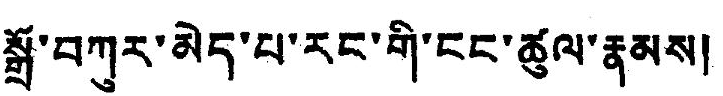སྒྲོ་བཀུར་མེད་པ་རང་གི་ངང་ཚུལ་རྣམས།
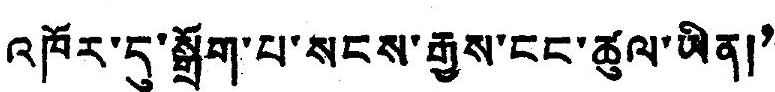འཁོར་དུ་སྒྲོག་པ་སངས་རྒྱས་ངང་ཚུལ་ཡིན།”
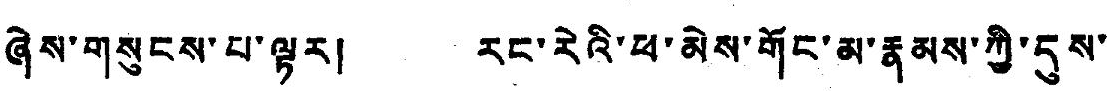ཞེས་གསུངས་པ་ལྟར། རང་རེའི་ཕ་མེས་གོང་མ་རྣམས་ཀྱི་དུས་
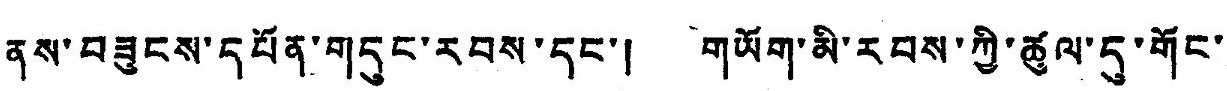ནས་བཟུངས་དཔོན་གདུང་རབས་དང་། གཡོག་མི་རབས་ཀྱི་ཚུལ་དུ་གོང་
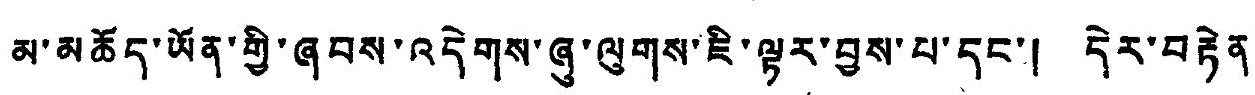མ་མཆོད་ཡོན་གྱི་ཞབས་འདེགས་ཞུ་ལུགས་ཇི་ལྟར་བྱས་པ་དང་། དེར་བརྟེན་
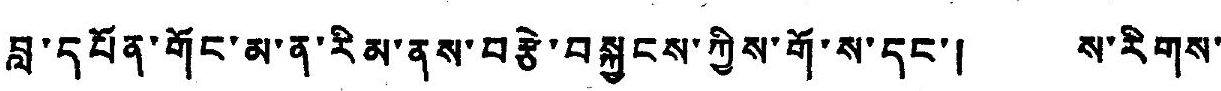བླ་དཔོན་གོང་མ་ན་རིམ་ནས་བརྩེ་བསྐྱངས་ཀྱིས་གོ་ས་དང་། ས་རིགས་
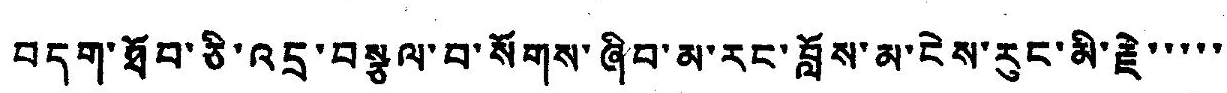བདག་ཐོབ་ཅི་འདྲ་བསྩལ་བ་སོགས་ཞིབ་མ་རང་བློས་མ་ངེས་རུང་མི་རྗེ་་་་་
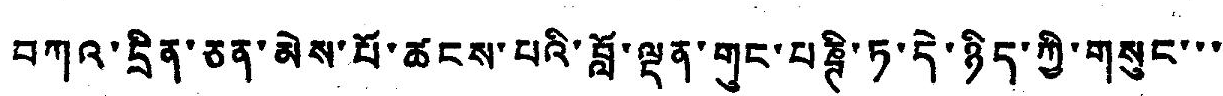བཀའ་དྲིན་ཅན་མེས་པོ་ཚངས་པའི་བློ་ལྡན་གུང་པཎྚི་ཏ་དེ་ཉིད་ཀྱི་གསུང་་་
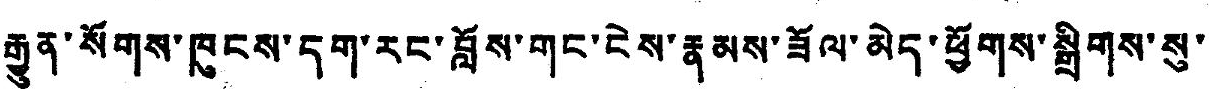རྒྱུན་སོགས་ཁུངས་དག་རང་བློས་གང་ངེས་རྣམས་ཟོལ་མེད་ཕྱོགས་སྒྲིགས་སུ་་
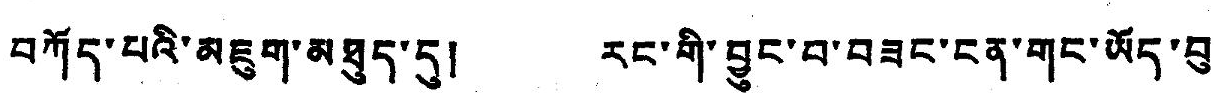བཀོད་པའི་མཇུག་མཐུད་དུ་། རང་གི་བྱུང་བ་བཟང་ངན་གང་ཡོད་བུ་
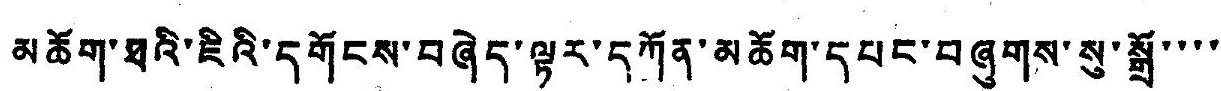མཆོག་ཐའི་ཇིའི་དགོངས་བཞེད་ལྟར་དཀོན་མཆོག་དཔང་བཞུགས་སུ་སྒྲོ་་་་
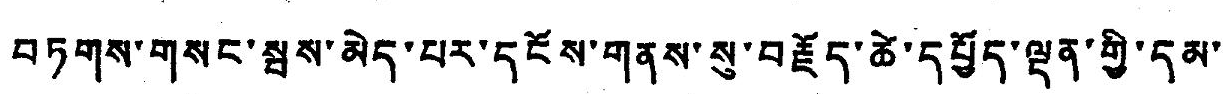བཏགས་གསང་སྦས་མེད་པར་དངོས་གནས་སུ་བརྗོད་ཚེ་དཔྱོད་ལྡན་གྱི་དམ་
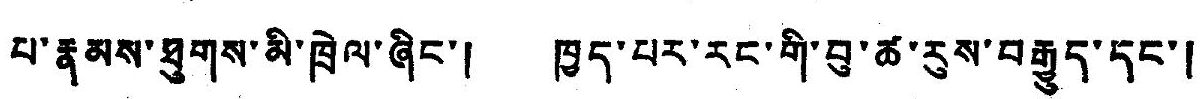པ་རྣམས་ཐུགས་མི་ཁྲེལ་ཞིང་། ཁྱད་པར་རང་གི་བུ་ཚ་རུས་རྒྱུད་དང་།
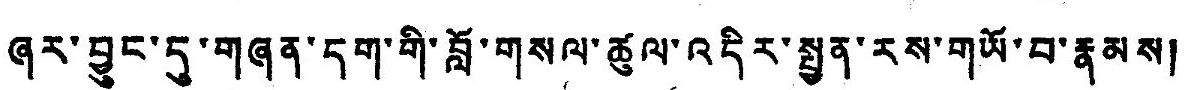ཞར་བྱུང་དུ་གཞན་དག་གི་བློ་གསལ་ཚུལ་འདིར་སྤྱན་རས་གཡོ་བ་རྣམས།
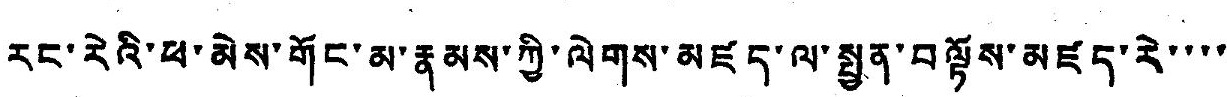རང་རེས་ཕ་མེས་གོང་མ་རྣམས་ཀྱི་ལེགས་མཛད་ལ་སྤྱན་བལྟོས་མཛད་རེ་་་་
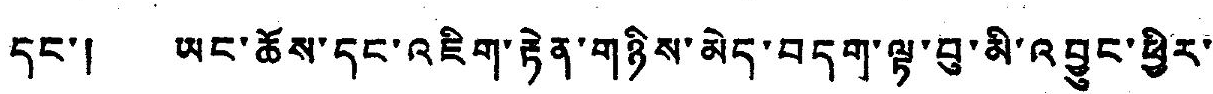དང་། ཡང་ཆོས་དང་འཇིག་རྟེན་གཉིས་མེད་བདག་ལྟ་བུ་མི་འབྱུང་ཕྱིར་་
